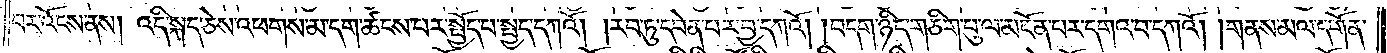བར་འོངས་ནས། འདི་སྐད་ཅེས་འཕགས་མ་དག་ཚངས་པར་སྤྱོད་པ་སྤྱད་དཀའོ། །རབ་ཏུ་དབེན་པར་བྱ་དཀའོ། །བདག་ཉིད་གཅིག་པུ་ལ་མངོན་པར་དགའ་བ་དཀའོ། །གནས་མལ་དགོན་
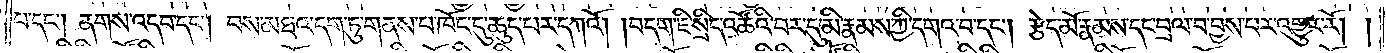པ་དང༌། ནགས་འདབ་དང༌། བས་མཐའ་དག་ཏུ་གནས་པ་ཁོང་དུ་ཆུད་པར་དཀའོ། །བདག་ཇི་སྲིད་འཚོའི་བར་དུ་མི་རྣམས་ཀྱི་དགའ་བ་དང༌། རྩེད་མོ་རྣམས་དང་བྲལ་བ་བྱས་པར་འགྱུར་རོ། །
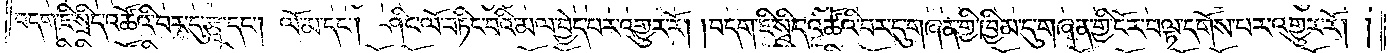བདག་ཇི་སྲིད་འཚོའི་བར་དུ་རྩྭ་དང༌། ལོ་མ་དང༌། ཤིང་ལོ་བཏིང་བའི་མལ་བྱེད་པར་འགྱུར་རོ། །བདག་ཇི་སྲིད་འཚོའི་བར་དུ་གཞན་གྱི་ཁྱིམ་དུ་གཞན་གྱི་ངོར་བལྟ་དགོས་པར་འགྱུར་རོ། །
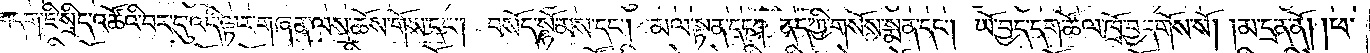བདག་ཇི་སྲིད་འཚོའི་བར་དུ་འདི་ལྟར་གཞན་ལས་ཆོས་གོས་དང༌། བསོད་སྙོམས་དང༌། མལ་སྟན་དང༌། ནད་ཀྱི་གསོས་སྨན་དང༌། ཡོ་བྱད་དག་ཚོལ་ཁྲོ་བྱ་དགོས་སོ། །མ་དྲན་ནོ། །ཕ་
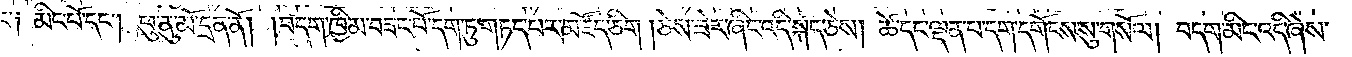དང་༑ མིང་པོ་དང༌། ཕུ་ནུ་མོ་དྲན་ནོ། །བདག་ཁྱིམ་བཟང་པོ་དག་ཏུ་གཏད་པར་མཛོད་ཅིག །ཅེས་ཟེར་ཞིང་འདི་སྐད་ཅེས། ཚེ་དང་ལྡན་པ་དག་དགོངས་སུ་གསོལ། བདག་མིང་འདི་ཞེས་
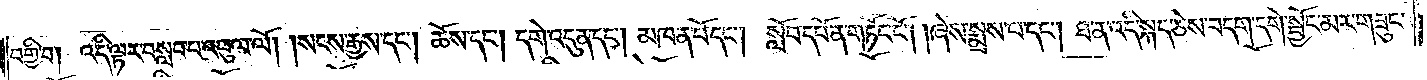བགྱི་བ། འདི་ལྟར་བསླབ་པ་འབུལ་ལོ། །སངས་རྒྱས་དང༌། ཆོས་དང༌། དགེ་འདུན་དང༌། མཁན་པོ་དང༌། སློབ་དཔོན་གཏོང་ངོ༌། །ཞེས་སྨྲས་པ་དང༌། ཐ་ན་འདི་སྐད་ཅེས་བདག་དགེ་སྦྱོང་མར་གཟུང་
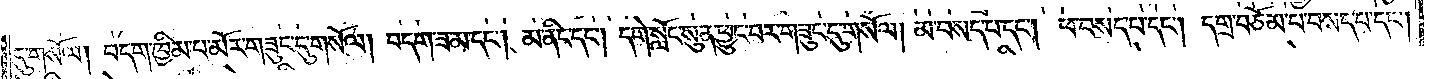དུ་གསོལ། བདག་ཁྱིམ་པ་མོར་གཟུང་དུ་གསོལ། བདག་ཟ་མ་དང༌། མ་ནིང་དང༌། དགེ་སློང་སུན་ཕྱུང་བར་གཟུང་དུ་གསོལ། མ་བསད་པ་དང༌། ཕ་བསད་པ་དང༌། དགྲ་བཅོམ་པ་བསད་པ་དང༌།
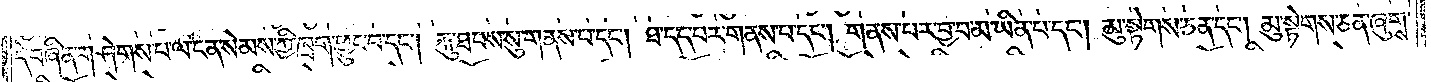དེ་བཞིན་གཤེགས་པ་ལ་ངན་སེམས་ཀྱི་ཁྲག་ཕྱུང་བ་དང༌། རྐུ་ཐབས་སུ་གནས་པ་དང༌། ཐ་དད་པར་གནས་པ་དང༌། གནས་པར་བྱ་བ་མ་ཡིན་པ་དང༌། མུ་སྟེགས་ཅན་དང༌། མུ་སྟེགས་ཅན་ཞུགས་
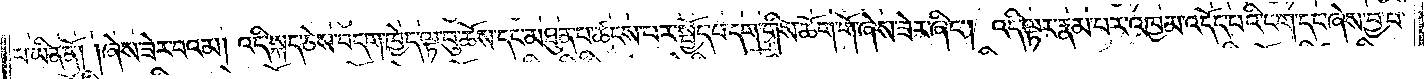པ་ཡིན་ནོ། །ཞེས་ཟེར་བའམ། འདི་སྐད་ཅེས་བདག་ཁྱེད་ལྟ་བུ་ཆོས་དང་མཐུན་པ་ཚངས་པར་སྤྱོད་པ་དག་གིས་ཆོག་གོ་ཞེས་ཟེར་ཞིང༌། འདི་ལྟར་རྣམ་པར་འཁྱམ་འདོད་པའི་ངག་དང་ཞེས་བྱ་བ་
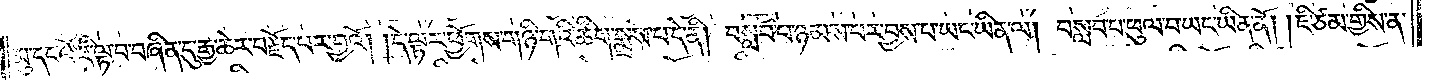མུ་དང་པོ་ཇི་ལྟ་བ་བཞིན་དུ་རྒྱ་ཆེར་བརྗོད་པར་བྱའོ། །དེ་ལྟར་ཕྱོགས་གཉི་གའི་ཚིག་སྨྲས་པ་དེ་ནི། བསླབ་པ་ཉམས་པར་བྱས་པ་ཡང་ཡིན་ལ། བསླབ་པ་ཕུལ་བ་ཡང་ཡིན་ནོ། །ཇི་ཙམ་གྱིས་ན་
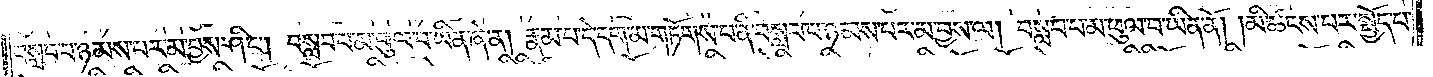བསླབ་པ་ཉམས་པར་མ་བྱས་ཤིང༌། བསླབ་པ་མ་ཕུལ་བ་ཡིན་ཞེ་ན། རྣམ་པ་དེ་དག་མ་གཏོགས་པ་ནི་བསླབ་པ་ཉམས་པར་མ་བྱས་ལ། བསླབ་པ་མ་ཕུལ་བ་ཡིན་ནོ། །མི་ཚངས་པར་སྤྱོད་པ་
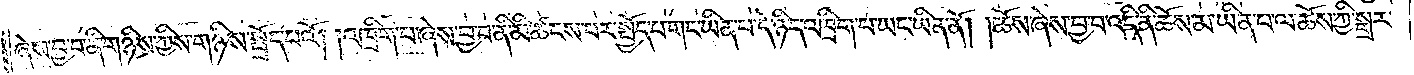ཞེས་བྱ་བ་ནི་གཉིས་ཀྱིས་གཉིས་སྤྲོད་པའོ། །འཁྲིག་པ་ཞེས་བྱ་བ་ནི་མི་ཚངས་པར་སྤྱོད་པ་གང་ཡིན་པ་དེ་ཉིད་འཁྲིག་པ་ཡང་ཡིན་ནོ། །ཆོས་ཞེས་བྱ་བ་འདི་ནི་ཆོས་མ་ཡིན་པ་ལ་ཆོས་ཀྱི་སྒྲར་
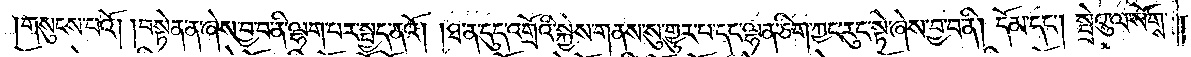གསུངས་པའོ། །བསྟེན་ན་ཞེས་བྱ་བ་ནི་ལྷག་པར་སྤྱད་ནའོ། །ཐ་ན་དུད་འགྲོའི་སྐྱེས་གནས་སུ་གྱུར་པ་དང་ལྷན་ཅིག་ཀྱང་རུང་སྟེ་ཞེས་བྱ་བ་ནི། དོམ་དང༌། སྤྲེའུ་ལ་སོགས་
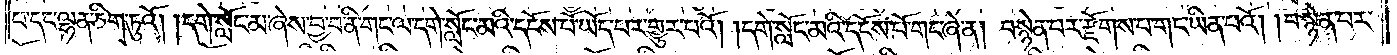པ་དང་ལྷན་ཅིག་ཏུའོ། །དགེ་སློང་མ་ཞེས་བྱ་བ་ནི་གང་ལ་དགེ་སློང་མའི་དངོས་པོ་ཡོད་པར་གྱུར་པའོ། །དགེ་སློང་མའི་དངོས་པོ་གང་ཞེ་ན། བསྙེན་པར་རྫོགས་པ་གང་ཡིན་པའོ། །བསྙེན་པར་
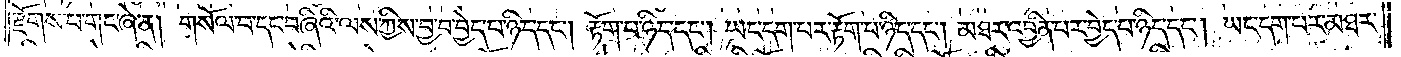རྫོགས་པ་གང་ཞེ་ན། གསོལ་བ་དང་བཞིའི་ལས་ཀྱིས་བྱ་བ་བྱེད་པ་ཉིད་དང༌། རྟོག་པ་ཉིད་དང༌། ཡང་དག་པར་རྟོག་པ་ཉིད་དང༌། མཐར་འབྱིན་པར་བྱེད་པ་ཉིད་དང༌། ཡང་དག་པར་མཐར་
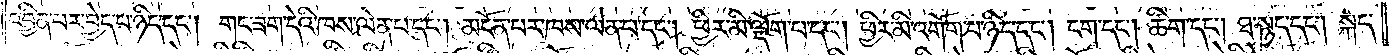འབྱིན་པར་བྱེད་པ་ཉིད་དང༌། གང་ཟག་དེའི་ཁས་ལེན་པ་དང༌། མངོན་པར་ཁས་ལེན་པ་དང༌། ཕྱིར་མི་ལྡོག་པ་དང༌། ཕྱིར་མི་འགོག་པ་ཉིད་དང༌། ངག་དང༌། ཚིག་དང༌། ཐ་སྙད་དང༌། སྐད་
